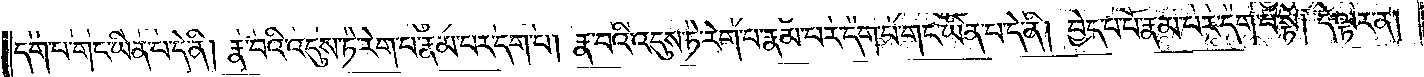དག་པ་གང་ཡིན་པ་དེ་ནི། རྣ་བའི་འདུས་ཏེ་རེག་པ་རྣམ་པར་དག་པ། རྣ་བའི་འདུས་ཏེ་རེག་པ་རྣམ་པར་དག་པ་གང་ཡིན་པ་དེ་ནི། བྱེད་པ་པོ་རྣམ་པར་དག་པ་སྟེ། དེ་ལྟར་ན་
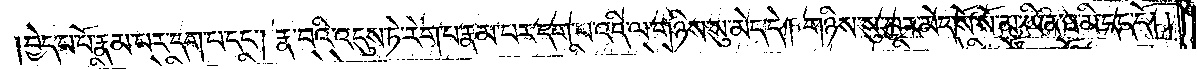བྱེད་པ་པོ་རྣམ་པར་དག་པ་དང༌། རྣ་བའི་འདུས་ཏེ་རེག་པ་རྣམ་པར་དག་པ་འདི་ལ་གཉིས་སུ་མེད་དེ། གཉིས་སུ་བྱར་མེད་སོ་སོ་མ་ཡིན་ཐ་མི་དད་དོ། །
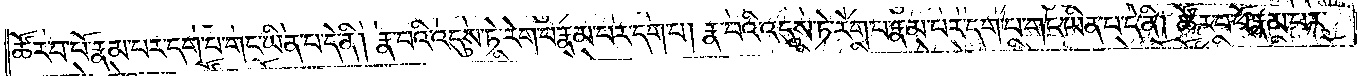ཚོར་བ་པོ་རྣམ་པར་དག་པ་གང་ཡིན་པ་དེ་ནི། རྣ་བའི་འདུས་ཏེ་རེག་པ་རྣམ་པར་དག་པ། རྣ་བའི་འདུས་ཏེ་རེག་པ་རྣམ་པར་དག་པ་གང་ཡིན་པ་དེ་ནི། ཚོར་བ་པོ་རྣམ་པར་
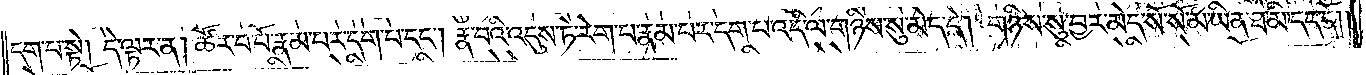དག་པ་སྟེ། དེ་ལྟར་ན། ཚོར་བ་པོ་རྣམ་པར་དག་པ་དང༌། རྣ་བའི་འདུས་ཏེ་རེག་པ་རྣམ་པར་དག་པ་འདི་ལ་གཉིས་སུ་མེད་དེ། གཉིས་སུ་བྱར་མེད་སོ་སོ་མ་ཡིན་ཐ་མི་དད་དོ།
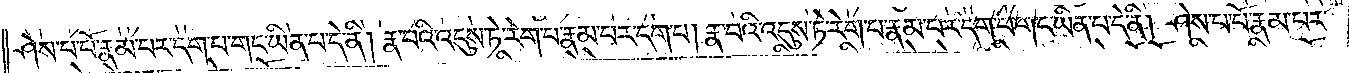།ཤེས་པ་པོ་རྣམ་པར་དག་པ་གང་ཡིན་པ་དེ་ནི། རྣ་བའི་འདུས་ཏེ་རེག་པ་རྣམ་པར་དག་པ། རྣ་བའི་འདུས་ཏེ་རེག་པ་རྣམ་པར་དག་པ་གང་ཡིན་པ་དེ་ནི། ཤེས་པ་པོ་རྣམ་པར་
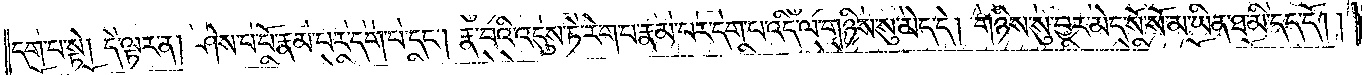དག་པ་སྟེ། དེ་ལྟར་ན། ཤེས་པ་པོ་རྣམ་པར་དག་པ་དང༌། རྣ་བའི་འདུས་ཏེ་རེག་པ་རྣམ་པར་དག་པ་འདི་ལ་གཉིས་སུ་མེད་དེ། གཉིས་སུ་བྱར་མེད་སོ་སོ་མ་ཡིན་ཐ་མི་དད་དོ། །
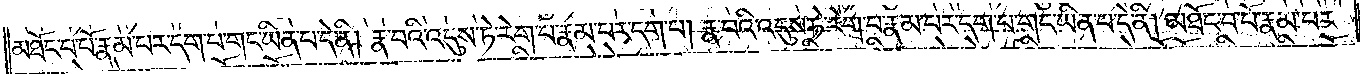མཐོང་བ་པོ་རྣམ་པར་དག་པ་གང་ཡིན་པ་དེ་ནི། རྣ་བའི་འདུས་ཏེ་རེག་པ་རྣམ་པར་དག་པ། རྣ་བའི་འདུས་ཏེ་རེག་པ་རྣམ་པར་དག་པ་གང་ཡིན་པ་དེ་ནི། མཐོང་བ་པོ་རྣམ་པར་
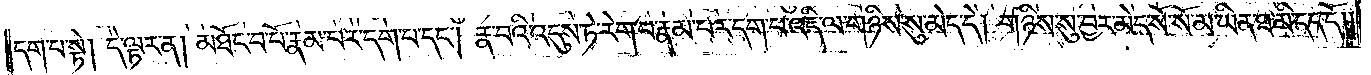དག་པ་སྟེ། དེ་ལྟར་ན། མཐོང་བ་པོ་རྣམ་པར་དག་པ་དང༌། རྣ་བའི་འདུས་ཏེ་རེག་པ་རྣམ་པར་དག་པ་འདི་ལ་གཉིས་སུ་མེད་དེ། གཉིས་སུ་བྱར་མེད་སོ་སོ་མ་ཡིན་ཐ་མི་དད་དོ། །
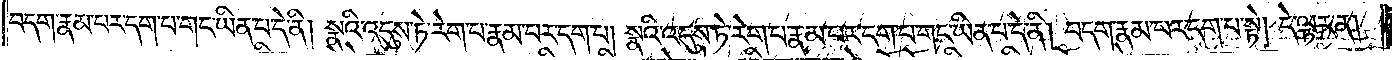བདག་རྣམ་པར་དག་པ་གང་ཡིན་པ་དེ་ནི། སྣའི་འདུས་ཏེ་རེག་པ་རྣམ་པར་དག་པ། སྣའི་འདུས་ཏེ་རེག་པ་རྣམ་པར་དག་པ་གང་ཡིན་པ་དེ་ནི། བདག་རྣམ་པར་དག་པ་སྟེ། དེ་ལྟར་ན།
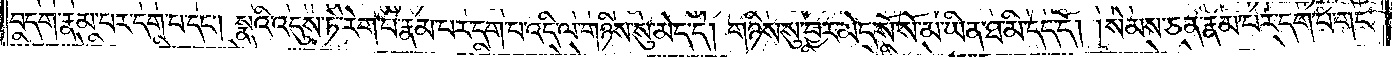བདག་རྣམ་པར་དག་པ་དང༌། སྣའི་འདུས་ཏེ་རེག་པ་རྣམ་པར་དག་པ་འདི་ལ་གཉིས་སུ་མེད་དེ། གཉིས་སུ་བྱར་མེད་སོ་སོ་མ་ཡིན་ཐ་མི་དད་དོ། །སེམས་ཅན་རྣམ་པར་དག་པ་གང་
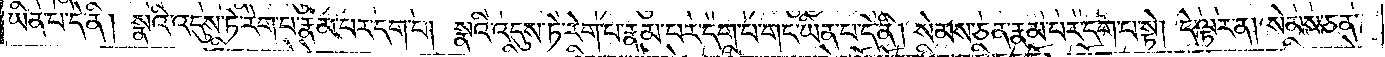ཡིན་པ་དེ་ནི། སྣའི་འདུས་ཏེ་རེག་པ་རྣམ་པར་དག་པ། སྣའི་འདུས་ཏེ་རེག་པ་རྣམ་པར་དག་པ་གང་ཡིན་པ་དེ་ནི། སེམས་ཅན་རྣམ་པར་དག་པ་སྟེ། དེ་ལྟར་ན། སེམས་ཅན་
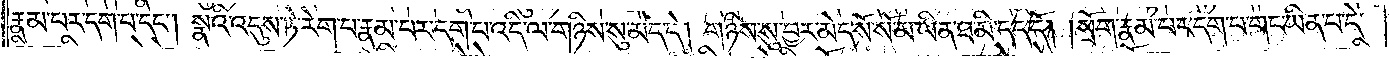རྣམ་པར་དག་པ་དང༌། སྣའི་འདུས་ཏེ་རེག་པ་རྣམ་པར་དག་པ་འདི་ལ་གཉིས་སུ་མེད་དེ། གཉིས་སུ་བྱར་མེད་སོ་སོ་མ་ཡིན་ཐ་མི་དད་དོ། །སྲོག་རྣམ་པར་དག་པ་གང་ཡིན་པ་དེ་
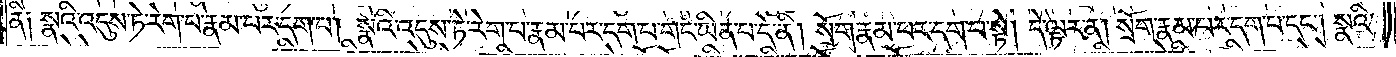ནི༑ སྣའི་འདུས་ཏེ་རེག་པ་རྣམ་པར་དག་པ། སྣའི་འདུས་ཏེ་རེག་པ་རྣམ་པར་དག་པ་གང་ཡིན་པ་དེ་ནི། སྲོག་རྣམ་པར་དག་པ་སྟེ། དེ་ལྟར་ན། སྲོག་རྣམ་པར་དག་པ་དང༌། སྣའི་
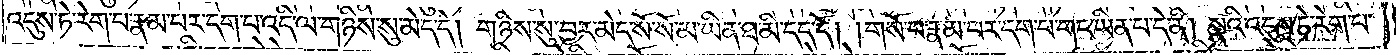འདུས་ཏེ་རེག་པ་རྣམ་པར་དག་པ་འདི་ལ་གཉིས་སུ་མེད་དེ། གཉིས་སུ་བྱར་མེད་སོ་སོ་མ་ཡིན་ཐ་མི་དད་དོ། །གསོ་བ་རྣམ་པར་དག་པ་གང་ཡིན་པ་དེ་ནི། སྣའི་འདུས་ཏེ་རེག་པ་
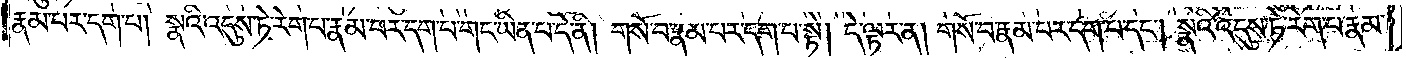རྣམ་པར་དག་པ། སྣའི་འདུས་ཏེ་རེག་པ་རྣམ་པར་དག་པ་གང་ཡིན་པ་དེ་ནི། གསོ་བ་རྣམ་པར་དག་པ་སྟེ། དེ་ལྟར་ན། གསོ་བ་རྣམ་པར་དག་པ་དང༌། སྣའི་འདུས་ཏེ་རེག་པ་རྣམ་
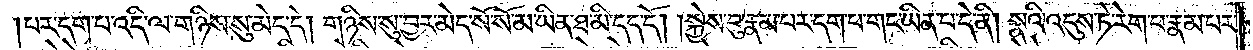པར་དག་པ་འདི་ལ་གཉིས་སུ་མེད་དེ། གཉིས་སུ་བྱར་མེད་སོ་སོ་མ་ཡིན་ཐ་མི་དད་དོ། །སྐྱེས་བུ་རྣམ་པར་དག་པ་གང་ཡིན་པ་དེ་ནི། སྣའི་འདུས་ཏེ་རེག་པ་རྣམ་པར་
